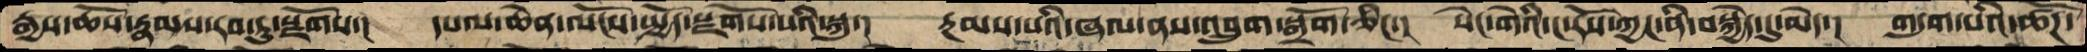རྒྱས་ཆོས་རྣམས་རབ་ཏུ་སྫོགས་།  དཔལ་ཆེན་ལོངས་སྤྱོད་སྫོགས་པའི་སྐུ་།  རྔམས་པའི་ཞལ་ནས་འབྲུག་སྒྲོག་ཅིང་་།  སེང་གེའི་ང་རོས་ཀྱང་ནི་བསྐྱེད་དུ་མེད་།  གདུག་པའི་ཚོཌ་
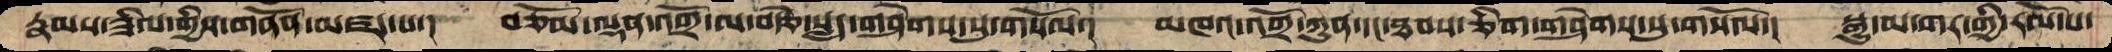རྣམས་ཟིལ་གྱིས་གནོན་མཛད་པ་།  བཅོམ་ལྡན་འགྲོ་ལ་བརྩེ་སླད་གཤེགས་སུ་གསོལ་།  མཁའ་འགྲོ་ཀུན་དང་ཐབས་ཅིག་གཤེགས་སུ་གསོལ་།  སྒྱུ་མ་གར་གྱི་རོལ་པ་
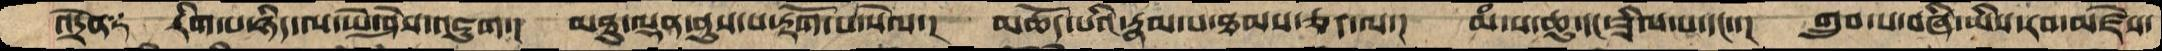འདྲེན༑  རིག་པ་ཉིད་ལ་ཡེ་ཤེས་འཇུག་།  མཐུ་ལྡན་ནུས་པ་རྟོག་པ་སེལ་།  མཆོད་པའི་རྣམ་པ་ཐམས་ཅད་ལ་།  མཾ་ས་ཆུ་དང་ཟིལ་པ་དང་་།  གྲུབ་པ་བཞི་ཡིས་རབ་མཛེས་
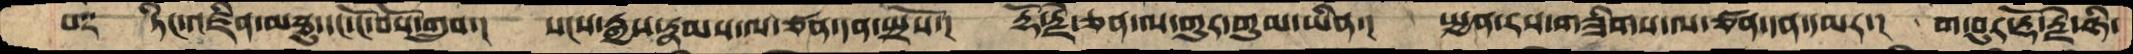པ༑  ཏིང་འཛིན་མཐུ་དང་ངོ་བོས་གྲུབ་།  སངས་རྒྱས་རྣམས་ལ་ཙན་དན་སྤྲོས་།  རྡོ་རྗེ་ཅན་ལ་གུར་གུམ་ཡིན་།  སྤྱན་རས་གཟིགས་ལ་ཙན་དན་དམར་།  ག་བུར་རྡོ་རྗེ་ཉི་
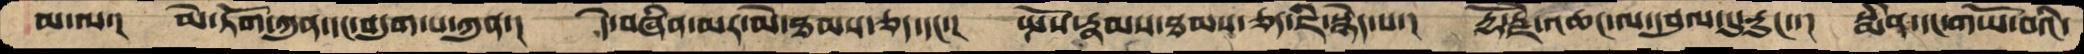མ་ལ་།  མེ་ཏོག་ཀུན་དང་བདུག་པ་ཀུན་།  དེ་བཞིན་མར་མེ་ཐམས་ཅད་དང་་།  སྤོས་རྣམས་ཐམས་ཅདཇི་སྙེད་པ་།  རྡོ་རྗེ་འཆང་ལ་དབུལ་དུ་རུང་་།  སྨིན་དང་གཡོ་བའི་
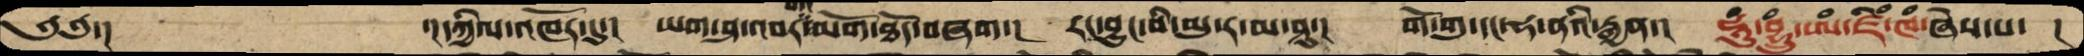༄༅་།   ་།དཀྱིལ་འཁོར་དུ་།  ཡག་ཤ་འབར་བའི་མགོ་ཐོད་བཞག་།  རང་བྱུང་བི་མུ་ར་མ་ཤུ་།  གོ་གུ་དང་ཧ་ནའི་རྒྱན་།  ཧཱུཾ་བྷྲུཾ་ཨཾ་ཛིཾ་ཁཾ་ཞེས་པ་  །
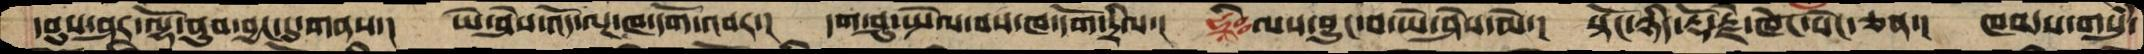དབུས་ཤར་ལྷོ་ནུབ་བྱང་དུ་གནས་།  ཡེ་ཤེས་འོད་ལྔ་ཁ་དོག་འབར་།  དག་ཤུ་སྤེལ་བས་ཁ་དོག་དྲིལ་།  ཧྲཱིཿལས་བྱུང་བ་ཡེ་ཤེས་མེ་།  སྟོང་ཉིད་རྡོ་རྗེ་ཁོང་སེང་ཅན་།  ཁམས་གསུཾ་
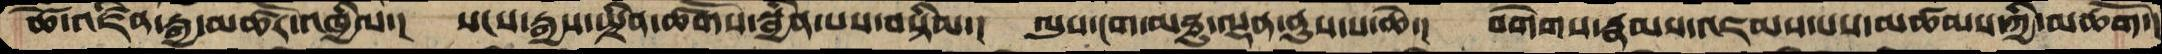ཚེ་འཛིན་རྒྱ་མཚོར་འཁྱིལ་།  སངས་རྒྱས་སྤྲིན་ཚོགས་སྦྱིན་པས་བསྟིམ་།  ལུས་ངག་མཐུ་ལྡན་ནུས་པ་ཆེ་།  བགེགས་རྣམས་འཇམས་པས་མཚམས་ཀྱི་མཆོག་།
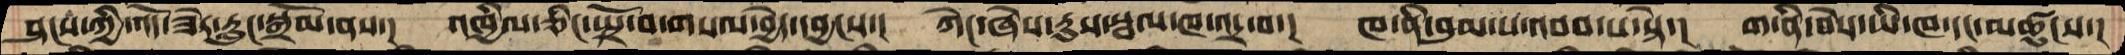ཤངས་ཀྱི་འོད་ཟེར་རླུང་སྒྲོམ་ནས་།  འཁྱིལ་ཅིང་སྤྲོ་བ་གསལ་བྱེད་དབྱངས་།  ཀེང་ཞེས་རུས་སྦལ་ཁ་འདྲ་བ་།  ཁ་ནི་བུམ་པ་འབབ་པ་སྟེ་།  ག་ནི་བེས་ཡི་ཁ་དང་མཚུངས་།
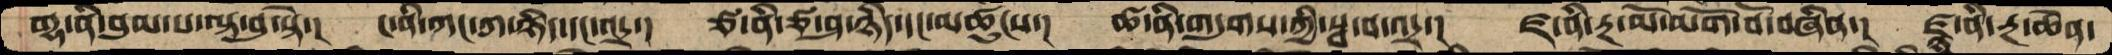གྷ་ནི་བུམ་པ་ལྟ་བུ་སྟེ་།  ང་ནི་ཀང་ཀ་ཉིད་དང་འདྲ་།  ཙ་ནི་ཙ་ཤ་ཉིད་དང་མཚུངས་།  ཚ་ནི་གདུགས་ཀྱི་སྦ་བ་འདྲ་།  ཛ་ནི་རྔ་མོ་མགོ་བོ་བཞིན་།  ཛྷ་ནི་རྔ་ཆེན་
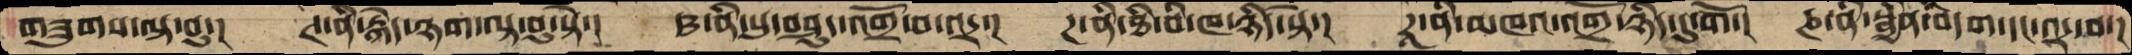གཟུགས་ལྟ་བུ་།  ཊ་ནི་རྒེད་ཉག་ལྟ་བུ་སྟེ་།  ཋ་ནི་པུ་བཤུད་འགྲོ་བ་འདྲ་།  ཌ་ནི་ཐི་བི་ཁ་ཉིད་སྟེ་།  ཌ་ནི་མཁའ་འགྲོ་ཉིད་དུ་གོ་།  ཎ་ནི་སྦྱིན་བདག་དང་འདྲ་བ་།
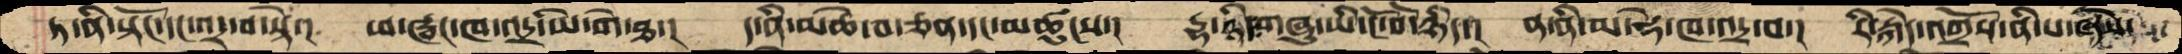ཏ་ནི་སྟོང་དང་འདྲ་བ་སྟེ་།  ཕ་ཝང་ཁ་འདྲ་ཡི་གེ་ཐ་།  ད་ནི་མཆེ་བ་ཅན་དང་མཚུངས་།  དྷ་ཉི་གཞུ་ཡི་ངོ་བོ་ཉིད་།  ན་ནི་མ་ཧེ་ཁ་འདྲ་བ་།  རི་རྐེད་འགྲོས་ནི་པ་ཞེས་
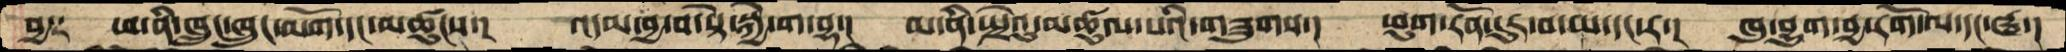བྱ་༑  ཕ་ནི་ཁྲུང་ཁྲུང་མགོ་དང་མཚུངས་།  འདམ་བྱ་བ་སྟེ་སྐྱེ་ག་བྷ་།  མ་ནི་སྤྲེའུ་མཚུལ་པའི་གཟུགས་།  ཕུག་རོན་ངུར་བ་མ་དང་ར་།  ཁུ་བྱུག་བྱ་རོག་ལ་དང་ཝ་།
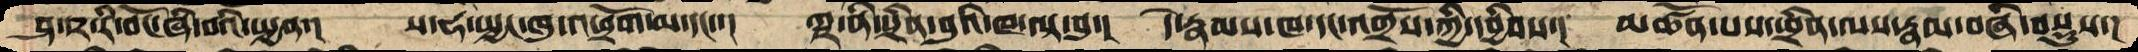ཤ་ཥ་རི་བོང་ཞི་བའི་སྤྱན་།  ས་ཧ་སྤྱང་ཁུ་འཕྲོག་མ་དང་།  ཀྵ་ནི་སྲིན་བུའི་ཁ་ལྟ་བུ་།  དེ་རྣམས་ཁ་དང་འགྲོས་ཀྱི་དབྱིབས་།  མཚོན་པས་ཕྲིན་ལས་རྣམ་བཞི་བསྡུས་།
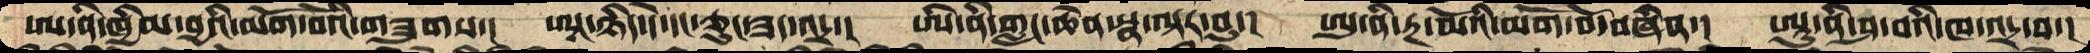ཨ་ནི་ཁྱིམ་བྱའི་མགོ་བོའི་གཟུགས་།  ཨཱ་ཉིད་དེ་དང་ཅུང་ཟད་འདྲ་།  ཨི་ནི་གླང་ཆེན་སྣ་ལྟར་བུ་།  ཨུ་ནི་རྔ་མོའི་མགོ་བོ་བཞིན་།  ཨཱུ་ནི་ཤ་བའི་ཁ་འདྲ་བ་།
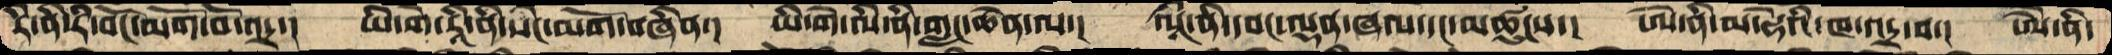རི་ནི་རི་བོང་མགོ་བོ་འདྲ་།  ཡི་གེ་རཱི་ནི་སེང་མགོ་བཞིན་།  ཡི་གེ་ལི་ནི་གླང་ཆེན་ལ་།  ལཱྀ་ནི་དབང་ལྡན་ཞལ་དང་མཚུངས་།  ཨེ་ནི་མ་ཧེའི་ཁ་འདྲ་བ་།  ཨེ་ནི་
